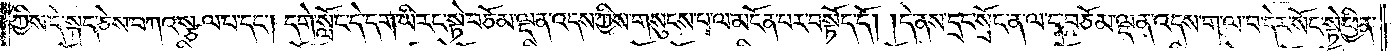ཀྱིས་དེ་སྐད་ཅེས་བཀའ་སྩལ་པ་དང༌། དགེ་སློང་དེ་དག་ཡི་རང་སྟེ་བཅོམ་ལྡན་འདས་ཀྱིས་གསུངས་པ་ལ་མངོན་པར་བསྟོད་དོ། །དེ་ནས་དྲང་སྲོང་ན་ལ་ད་བཅོམ་ལྡན་འདས་ག་ལ་བ་དེར་སོང་སྟེ་ཕྱིན་
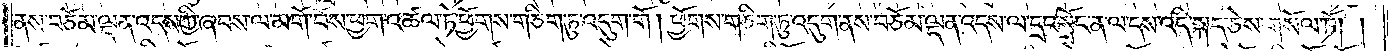ནས་བཅོམ་ལྡན་འདས་ཀྱི་ཞབས་ལ་མགོ་བོས་ཕྱག་འཚལ་ཏེ་ཕྱོགས་གཅིག་ཏུ་འདུག་གོ །ཕྱོགས་གཅིག་ཏུ་འདུག་ནས་བཅོམ་ལྡན་འདས་ལ་དྲང་སྲོང་ན་ལ་དས་འདི་སྐད་ཅེས་གསོལ་ཏོ། །
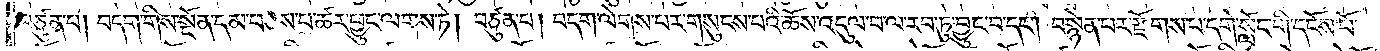བཙུན་པ། བདག་གིས་སྔོན་དམ་བཅས་པ་ཚར་ཕྱུང་ལགས་ཏེ། བཙུན་པ། བདག་ལེགས་པར་གསུངས་པའི་ཆོས་འདུལ་བ་ལ་རབ་ཏུ་བྱུང་བ་དང༌། བསྙེན་པར་རྫོགས་པ་དགེ་སློང་གི་དངོས་པོ་
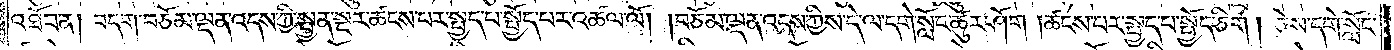འཐོབ་ན། བདག་བཅོམ་ལྡན་འདས་ཀྱི་སྤྱན་སྔར་ཚངས་པར་སྤྱད་པ་སྤྱོད་པར་འཚལ་ལོ། །བཅོམ་ལྡན་འདས་ཀྱིས་དེ་ལ་དགེ་སློང་ཚུར་ཤོག །ཚངས་པར་སྤྱད་པ་སྤྱོད་ཅིག །ཅེས་དགེ་སློང་
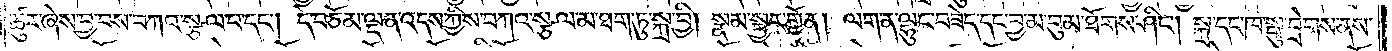ཚུར་ཞེས་བྱ་བས་བཀའ་སྩལ་པ་དང༌། དེ་བཅོམ་ལྡན་འདས་ཀྱིས་བཀའ་སྩལ་མ་ཐག་ཏུ་སྐྲ་བྱི། སྣམ་སྦྱར་གྱོན། ལག་ན་ལྷུང་བཟེད་དང་བྱ་མ་བུམ་ཐོགས་ཤིང༌། སྐྲ་དང་ཁ་སྤུ་བྲེགས་ནས་
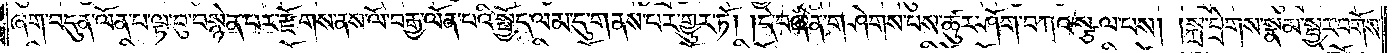ཞག་བདུན་ལོན་པ་ལྟ་བུ་བསྙེན་པར་རྫོགས་ནས་ལོ་བརྒྱ་ལོན་པའི་སྤྱོད་ལམ་དུ་གནས་པར་གྱུར་ཏེ། །དེ་བཞིན་གཤེགས་པས་ཚུར་ཤོག་བཀའ་སྩལ་པས། །སྐྲ་བྲེགས་སྣམ་སྦྱར་བགོས་
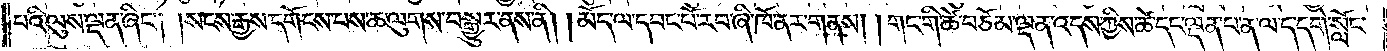པའི་ལུས་ལྡན་ཞིང༌། །སངས་རྒྱས་དགོངས་པས་ཆ་ལུགས་བསྒྱུར་ནས་ནི། །མོད་ལ་དབང་པོ་རབ་ཞི་ཁོ་ནར་གནས། །གང་གི་ཚེ་བཅོམ་ལྡན་འདས་ཀྱིས་ཚེ་དང་ལྡན་པ་ན་ལ་ད་དགེ་སློང་
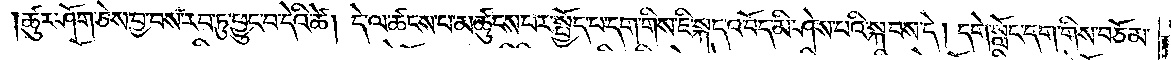ཚུར་ཤོག་ཅེས་བྱ་བས་རབ་ཏུ་ཕྱུང་བ་དེའི་ཚེ། དེ་ལ་ཚངས་པ་མཚུངས་པར་སྤྱོད་པ་དག་གིས་ཇི་སྐད་འབོད་མི་ཤེས་པའི་སྐབས་དེ། དགེ་སློང་དག་གིས་བཅོམ་
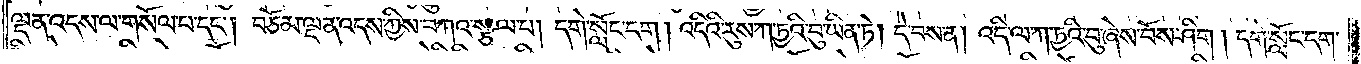ལྡན་འདས་ལ་གསོལ་པ་དང༌། བཅོམ་ལྡན་འདས་ཀྱིས་བཀའ་སྩལ་པ། དགེ་སློང་དག །འདིའི་རུས་ཀ་ཏྱའི་བུ་ཡིན་ཏེ། དེ་བས་ན། འདི་ལ་ཀ་ཏྱའི་བུ་ཞེས་བོས་ཤིག །དགེ་སློང་དག་
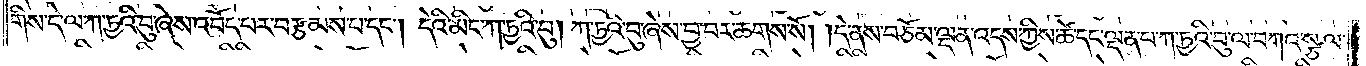གིས་དེ་ལ་ཀ་ཏྱའི་བུ་ཞེས་འབོད་པར་བརྩམས་པ་དང༌། དེའི་མིང་ཀ་ཏྱའི་བུ། ཀ་ཏྱའི་བུ་ཞེས་བྱ་བར་ཆགས་སོ། །དེ་ནས་བཅོམ་ལྡན་འདས་ཀྱིས་ཚེ་དང་ལྡན་པ་ཀ་ཏྱའི་བུ་ལ་བཀའ་སྩལ་
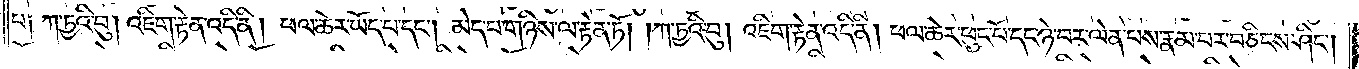པ༑ ཀ་ཏྱའི་བུ། འཇིག་རྟེན་འདི་ནི། ཕལ་ཆེར་ཡོད་པ་དང༌། མེད་པ་གཉིས་ལ་རྟེན་ཏོ། །ཀ་ཏྱའི་བུ། འཇིག་རྟེན་འདི་ནི། ཕལ་ཆེར་ཕུང་པོ་དང་ཉེ་བར་ལེན་པས་རྣམ་པར་བཅིངས་ཤིང༌།
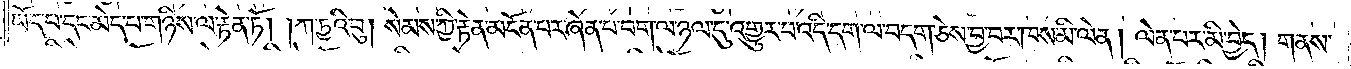ཡོད་པ་དང་མེད་པ་གཉིས་ལ་རྟེན་ཏོ། །ཀ་ཏྱའི་བུ། སེམས་ཀྱི་རྟེན་མངོན་པར་ཞེན་པ་བག་ལ་ཉལ་དུ་འགྱུར་བ་འདི་དག་ལ་བདག་ཅེས་བྱ་བར་ཁས་མི་ལེན། ལེན་པར་མི་བྱེད། གནས་
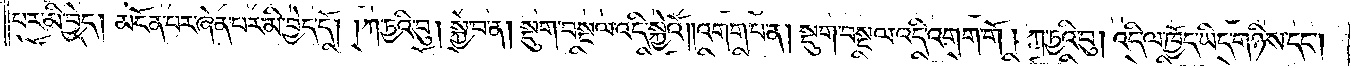པར་མི་བྱེད། མངོན་པར་ཞེན་པར་མི་བྱེད་དོ། །ཀ་ཏྱའི་བུ། སྐྱེ་བ་ན། སྡུག་བསྔལ་འདི་སྐྱེའོ། །འགག་པ་ན། སྡུག་བསྔལ་འདི་འགག་གོ །ཀ་ཏྱའི་བུ། འདི་ལ་ཁྱོད་ཡིད་གཉིས་དང༌།
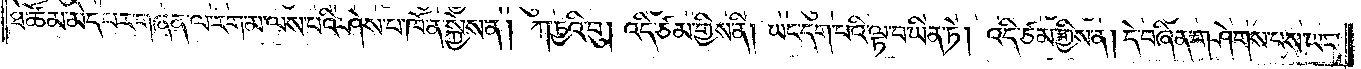ཐེ་ཚོམ་མེད་པར་གཞན་ལ་རག་མ་ལས་པའི་ཤེས་པ་ཁོ་ན་སྐྱེས་ན། ཀ་ཏྱའི་བུ། འདི་ཙམ་གྱིས་ནི། ཡང་དག་པའི་ལྟ་བ་ཡིན་ཏེ། འདི་ཙམ་གྱིས་ན། དེ་བཞིན་གཤེགས་པས་ཡང་
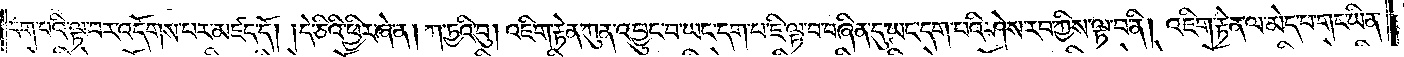དག་པའི་ལྟ་བར་འདོགས་པར་མཛད་དོ། །དེ་ཅིའི་ཕྱིར་ཞེ་ན། ཀ་ཏྱའི་བུ། འཇིག་རྟེན་ཀུན་འབྱུང་བ་ཡང་དག་པ་ཇི་ལྟ་བ་བཞིན་དུ་ཡང་དག་པའི་ཤེས་རབ་ཀྱིས་ལྟ་བ་ནི། འཇིག་རྟེན་ལ་མེད་པ་གང་ཡིན་
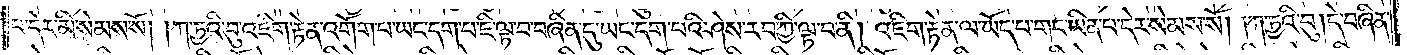པ་དེར་མི་སེམས་སོ། །ཀ་ཏྱའི་བུ་འཇིག་རྟེན་འགོག་པ་ཡང་དག་པ་ཇི་ལྟ་བ་བཞིན་དུ་ཡང་དག་པའི་ཤེས་རབ་ཀྱི་ལྟ་བ་ནི། འཇིག་རྟེན་ལ་ཡོད་པ་གང་ཡིན་པ་དེར་སེམས་སོ། །ཀ་ཏྱའི་བུ། དེ་བཞིན་
